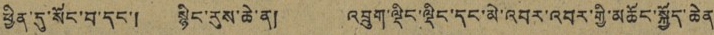ཕྱིན་དུ་སོང་བ་དང་། སྙིང་རུས་ཆེ་ན། འབྲུག་ལྡིང་ལྡིང་དང་མེ་འབར་འབར་གྱི་མཆོང་སྐྱོད་ཆེན
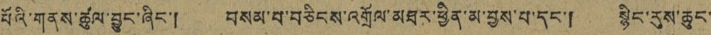པོའི་གནས་ཚུལ་བྱུང་ཞིང་། བསམ་པ་བཅིངས་འགྲོལ་མཐར་ཕྱིན་མ་བྱས་པ་དང་། སྙིང་རུས་ཆུང་
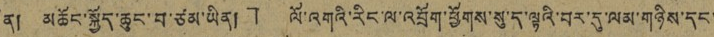ན། མཆོང་སྐྱོད་ཆུང་བ་ཙམ་ཡིན།」 ལོ་འགའི་རིང་ལ་འབྲོག་ཕྱོགས་སུ་ད་ལྟའི་བར་དུ་ལམ་གཉིས་དང་
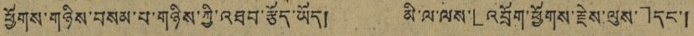ཕྱོགས་གཉིས་བསམ་པ་གཉིས་ཀྱི་འཐབ་རྩོད་ཡོད། མི་ལ་ལས་「འབྲོག་ཕྱོགས་རྗེས་ལུས་」དང་།
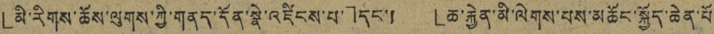「མི་རིགས་ཆོས་ལུགས་ཀྱི་གནད་དོན་སྣེ་འཛིངས་པ་」དང་། 「ཆ་རྐྱེན་མི་ལེགས་པས་མཆོང་སྐྱོད་ཆེན་པོ
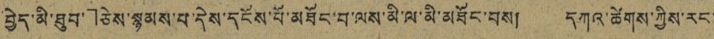བྱེད་མི་ཐུབ་」ཅེས་སྙམས་པ་དེས་དངོས་པོ་མཐོང་བ་ལས་མི་ལ་མི་མཐོང་བས། དཀའ་ཚེགས་ཀྱིས་རང་
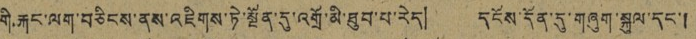གི རྐང་ལག་བཅིངས་ནས་འཇིགས་ཏེ་སྔོན་དུ་འགྲོ་མི་ཐུབ་པ་རེད། དངོས་དོན་དུ་གཞུག་སྐུལ་དང་།
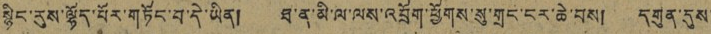སྙིང་རུས་ལྷོད་པོར་གཏོང་བ་དེ་ཡིན། ཐ་ན་མི་ལ་ལས་འབྲོག་ཕྱོགས་སུ་གྲང་ངར་ཆེ་བས། དགུན་དུས་
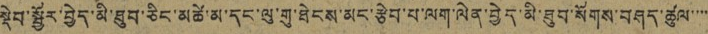སྡེབ་སྦྱོར་བྱེད་མི་ཐུབ་ཅིང་མཚེ་མ་དང་ལུ་གུ་ཐེངས་མང་རྩེབ་པ་ལག་ལེན་བྱེད་མི་ཐུབ་སོགས་བཤད་ཚུལ་་་་་
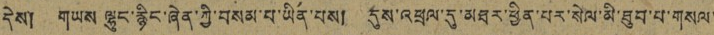དེས། གཡས ལྷུང་རྙིང་ཞེན་ཀྱི་བསམ་པ་ཡིན་པས། དུས་འཕྲལ་དུ་མཐར་ཕྱིན་པར་སེལ་མི་ཐུབ་པ་གསལ་
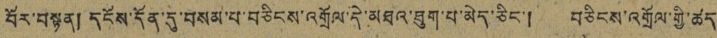པོར་བསྟན། དངོས་དོན་དུ་བསམ་པ་བཅིངས་འགྲོལ་དེ་མཐའ་ཐུག་པ་མེད་ཅིང་། བཅིངས་འགྲོལ་གྱི་ཚད
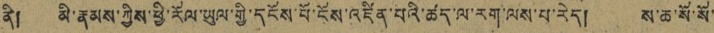ནི། མི་རྣམས་ཀྱིས་ཕྱི་རོལ་ཡུལ་གྱི་དངོས་པོ་ངོས་འཛིན་པའི་ཚད་ལ་རག་ལས་པ་རེད། ས་ཆ་སོ་སོ་
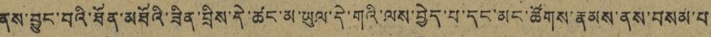ནས་བྱུང་བའི་ཐོན་མཐོའི་ཟིན་བྲིས་དེ་ཚང་མ་ཡུལ་དེ་གའི་ལས་བྱེད་པ་དང་མང་ཚོགས་རྣམས་ནས་བསམ་པ
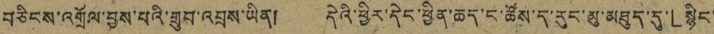བཅིངས་འགྲོལ་བྱས་པའི་གྲུབ་འབྲས་ཡིན། དེའི་ཕྱིར་དེང་ཕྱིན་ཆད་ང་ཚོས་ད་རུང་མུ་མཐུད་དུ་「སྙིང་
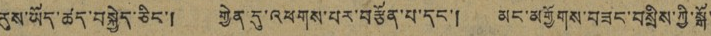རུས་ཡོད་ཚད་བསྐྱེད་ཅིང་། གྱེན་དུ་འཕགས་པར་བརྩོན་པ་དང་། མང་མགྱོགས་བཟང་བསྲིས་ཀྱི་སྒོ་
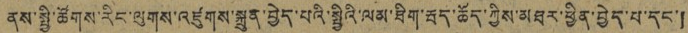ནས་སྤྱི་ཚོགས་རིང་ལུགས་འཛུགས་སྐྲུན་བྱེད་པའི་སྤྱིའི་ལམ་ཐིག་རྦད་ཆོད་ཀྱིས་མཐར་ཕྱིན་བྱེད་པ་དང་།
